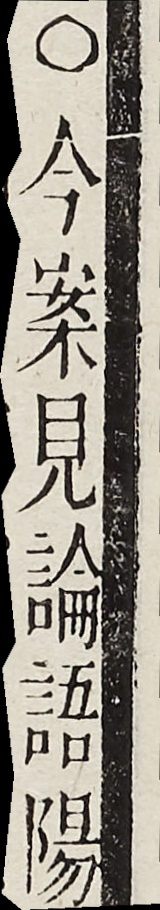○今案見論語陽
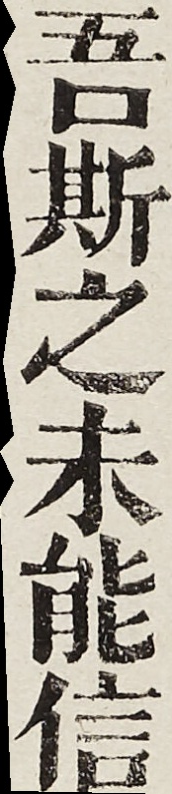吾斯之未能信
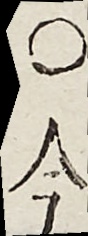○今
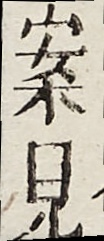案見
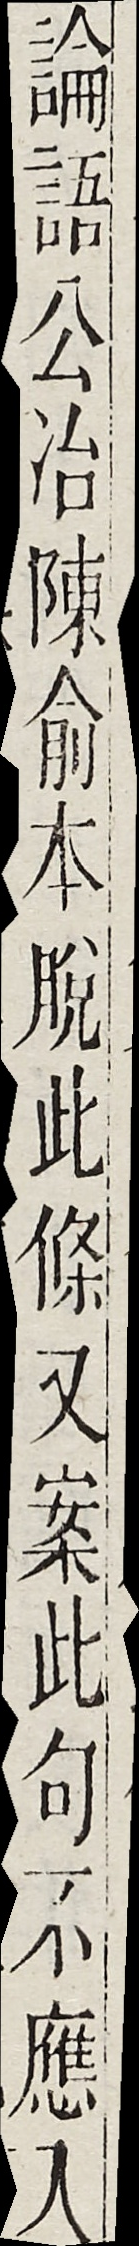論語公冶陳俞本脫此條又案此句不應入
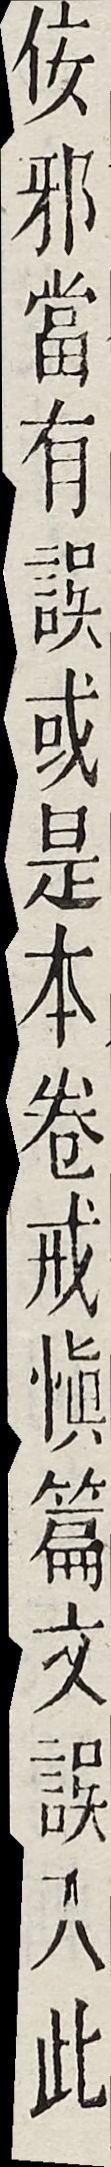佞邪當有誤或是本卷戒慎篇文誤入此
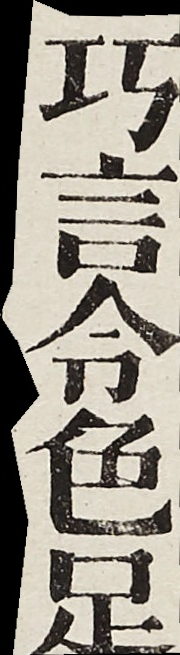巧言令色足
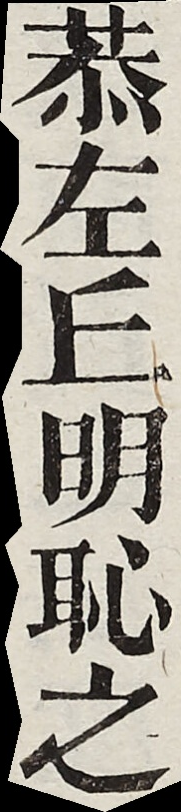恭左丘明恥之
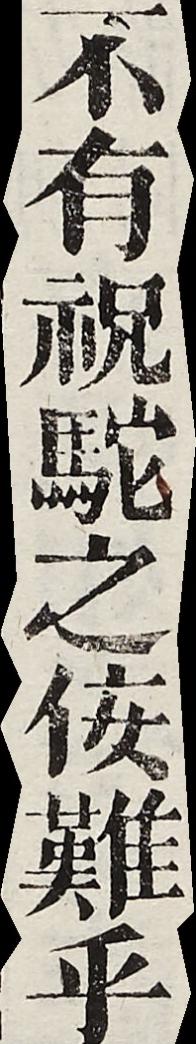不有祝駝之佞難乎
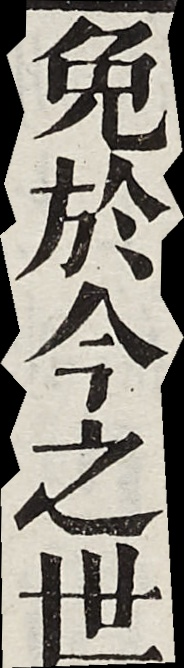免於今之世
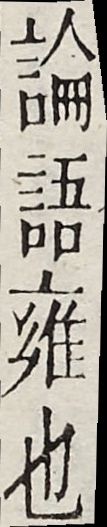論語雍也
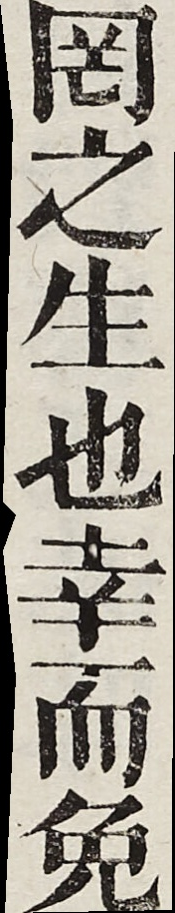罔之生也幸而免
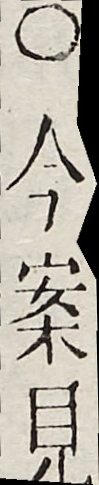○今案見
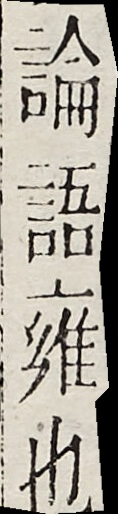論語雍也
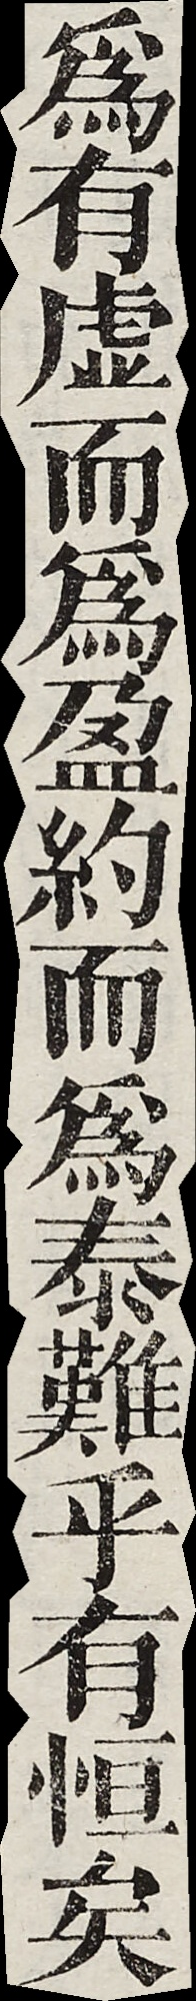為有虛而為盈約而為泰難乎有恒矣
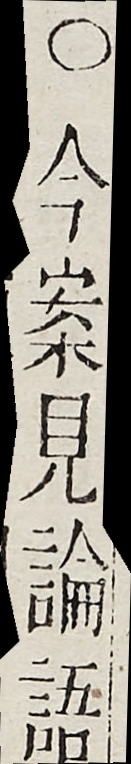○今案見論語
